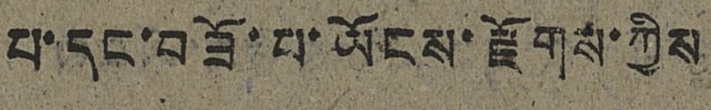པ་དང་བཟོ་པ་ཡོངས་རྫོགས་ཀྱིས་
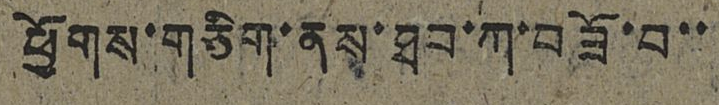ཕྱོགས་གཅིག་ནས་ཐབ་ཀ་བཟོ་བ་་
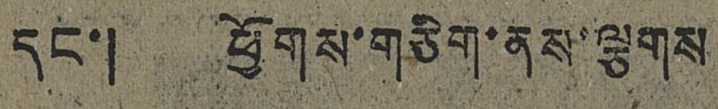དང་། ཕྱོགས་གཅིག་ནས་ལྕགས
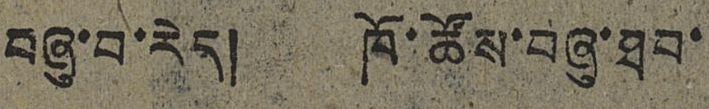བཞུ་བ་རེད། ཁོ་ཚོས་བཞུ་ཐབ་
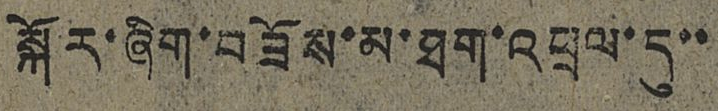སྐོར་ཞིག་བཟོས་མ་ཐག་འཕྲལ་དུ་་
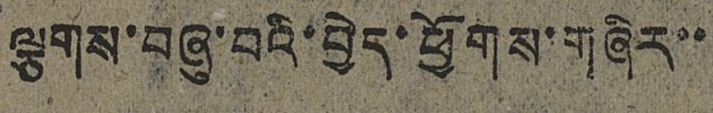ལྕགས་བཞུ་བའི་བྱེད་ཕྱོགས་གཞིར་་
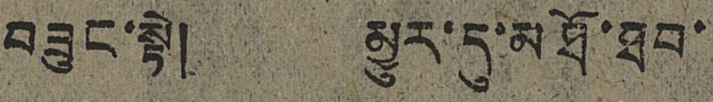བཟུང་སྟེ། མྱུར་དུ་མཐོ་ཐབ་
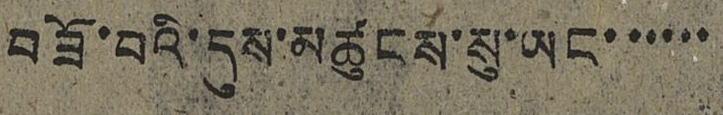བཟོ་བའི་དུས་མཚུངས་སུ་ཡང་་་་་་
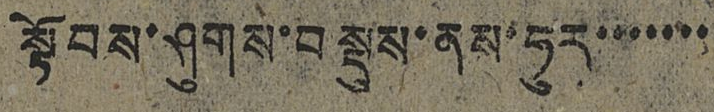སྟོབས་ཤུགས་བསྡུས་ནས་ཧུར་་་་་་་
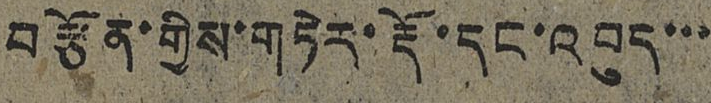བརྩོན་གྱིས་གཏེར་རྡོ་དང་འབུད་་་
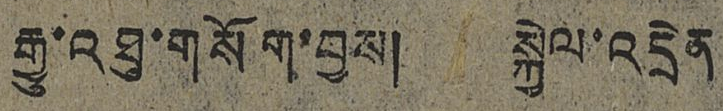རྒྱུ་འཐུ་གསོག་བྱས། སྐྱེལ་འདྲེན
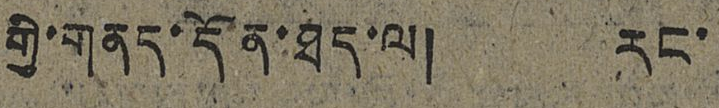གྱི་གནད་དོན་ཐད་ལ། རང་
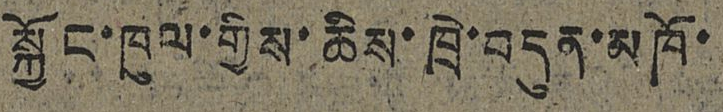སྐྱོང་ཁུལ་གྱིས་ཆིས་ཁྲེ་བདུན་མཁོ་
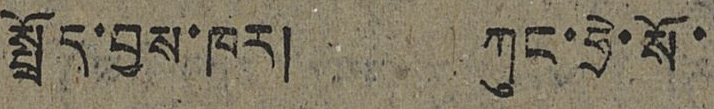སྤྲོད་བྱས་ཁར། ཀུང་ཧྲེ་སོ་
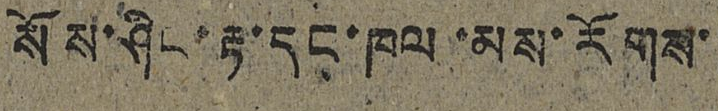སོས་ཤིང་རྟ་དང་ཁལ་མས་རོགས་
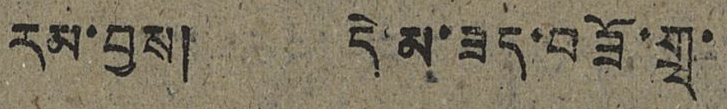རམ་བྱས། དེ་མ་ཟད་བཟོ་གྲྭ་
